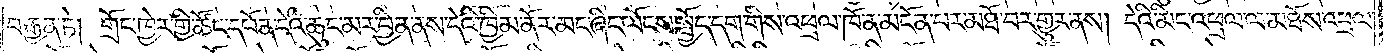བརྒྱན་ཏེ། གྲོང་ཁྱེར་གྱི་ཚོང་དཔོན་དེའི་ཆུང་མར་བྱིན་ནས་དེའི་ཁྱིམ་ནོར་མང་ཞིང་ལོངས་སྤྱོད་དག་གིས་འཕྲལ་ཁོ་ན་མངོན་པར་མཐོ་བར་གྱུར་ནས། དེའི་མིང་འཕྲལ་ལ་མཐོས་འཕྲལ་
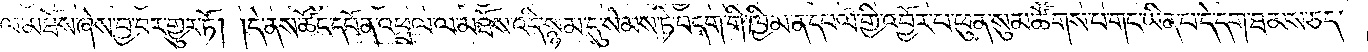ལ་མཐོས་ཞེས་བྱ་བར་གྱུར་ཏོ། །དེ་ནས་ཚོང་དཔོན་འཕྲལ་ལ་མཐོས་འདི་སྙམ་དུ་སེམས་ཏེ་བདག་གི་ཁྱིམ་ན་དཔལ་གྱི་འབྱོར་པ་ཕུན་སུམ་ཚོགས་པ་གང་ཡིན་པ་དེ་དག་ཐམས་ཅད་
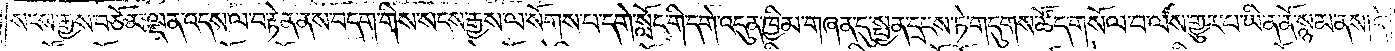སངས་རྒྱས་བཅོམ་ལྡན་འདས་ལ་བརྟེན་ནས་བདག་གིས་སངས་རྒྱས་ལ་སོགས་པ་དགེ་སློང་གི་དགེ་འདུན་ཁྱིམ་གཞན་དུ་སྤྱན་དྲངས་ཏེ་གདུགས་ཚོད་གསོལ་བ་ལས་གྱུར་པ་ཡིན་ནོ་སྙམ་ནས། དེ་
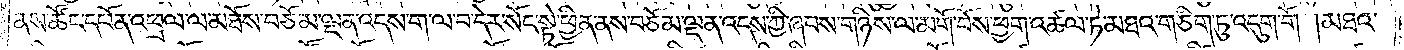ནས་ཚོང་དཔོན་འཕྲལ་ལ་མཐོས་བཅོམ་ལྡན་འདས་ག་ལ་བ་དེར་སོང་སྟེ་ཕྱིན་ནས་བཅོམ་ལྡན་འདས་ཀྱི་ཞབས་གཉིས་ལ་མགོ་བོས་ཕྱག་འཚལ་ཏེ་མཐའ་གཅིག་ཏུ་འདུག་གོ །མཐའ་
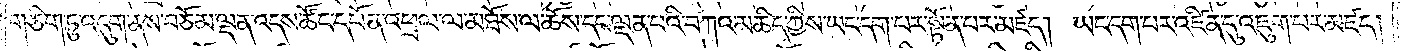གཅིག་ཏུ་འདུག་ནས་བཅོམ་ལྡན་འདས་ཚོང་དཔོན་འཕྲལ་ལ་མཐོས་ལ་ཆོས་དང་ལྡན་པའི་བཀའ་མཆིད་ཀྱིས་ཡང་དག་པར་སྟོན་པར་མཛད། ཡང་དག་པར་འཛིན་དུ་འཇུག་པར་མཛད།
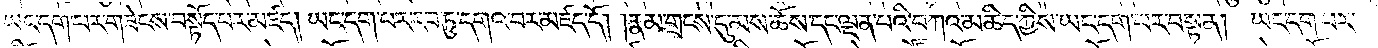ཡང་དག་པར་གཟེངས་བསྟོད་པར་མཛད། ཡང་དག་པར་རབ་ཏུ་དགའ་བར་མཛད་དོ། །རྣམ་གྲངས་དུ་མས་ཆོས་དང་ལྡན་པའི་བཀའ་མཆིད་ཀྱིས་ཡང་དག་པར་བསྟན། ཡང་དག་པར་
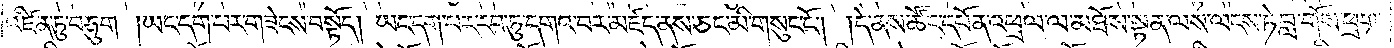འཛིན་ཏུ་བཅུག །ཡང་དག་པར་གཟེངས་བསྟོད། ཡང་དག་པར་རབ་ཏུ་དགའ་བར་མཛད་ནས་ཅང་མི་གསུང་ངོ༌། །དེ་ནས་ཚོང་དཔོན་འཕྲལ་ལ་མཐོས་སྟན་ལས་ལངས་ཏེ་བླ་གོས་ཕྲག་
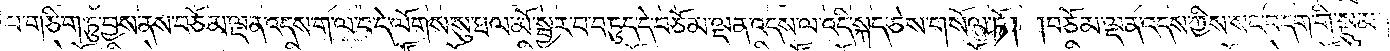པ་གཅིག་ཏུ་བྱས་ནས་བཅོམ་ལྡན་འདས་ག་ལ་བ་དེ་ལོངས་སུ་ཐལ་མོ་སྦྱར་བ་བཏུད་དེ་བཅོམ་ལྡན་འདས་ལ་འདི་སྐད་ཅེས་གསོལ་ཏོ། །བཅོམ་ལྡན་འདས་ཀྱིས་སང་བདག་གི་སྡུམ་
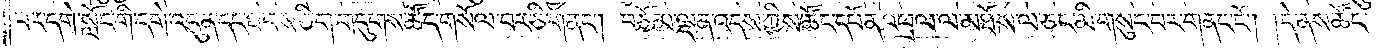པར་དགེ་སློང་གི་དགེ་འདུན་དང་ཐབས་ཅིག་གདུགས་ཚོད་གསོལ་བར་ཅི་གནང༌། བཅོམ་ལྡན་འདས་ཀྱིས་ཚོང་དཔོན་འཕྲལ་ལ་མཐོས་ལ་ཅང་མི་གསུང་བར་གནང་ངོ༌། །དེ་ནས་ཚོང་
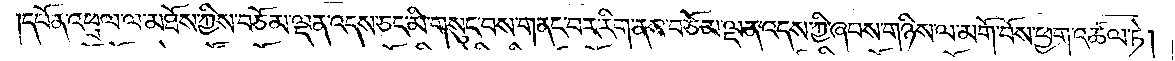དཔོན་འཕྲལ་ལ་མཐོས་ཀྱིས་བཅོམ་ལྡན་འདས་ཅང་མི་གསུང་བས་གནང་བར་རིག་ནས་བཅོམ་ལྡན་འདས་ཀྱི་ཞབས་གཉིས་ལ་མགོ་བོས་ཕྱག་འཚལ་ཏེ།
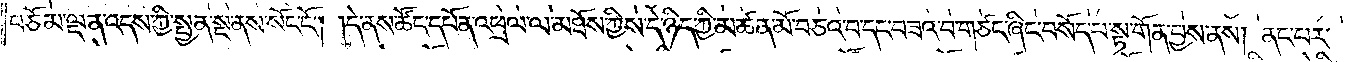བཅོམ་ལྡན་འདས་ཀྱི་སྤྱན་སྔ་ནས་སོང་ངོ༌། །དེ་ནས་ཚོང་དཔོན་འཕྲལ་ལ་མཐོས་ཀྱིས་དེ་ཉིད་ཀྱི་མཚན་མོ་བཅའ་བ་དང་བཟའ་བ་གཙང་ཞིང་བསོད་པ་སྟ་གོན་བྱས་ནས། ནང་པར་
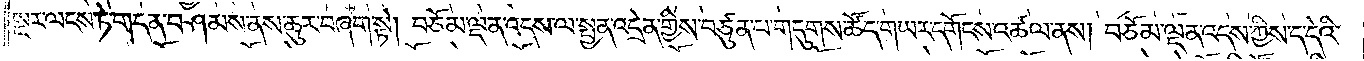སྔར་ལངས་ཏེ་གདན་བཤམས་ནས་ཆུར་བཞག་སྟེ། བཅོམ་ལྡན་འདས་ལ་སྤྱན་འདྲེན་གྱིས་བཙུན་པ་གདུགས་ཚོད་གཡར་དགོངས་འཚལ་ནས། བཅོམ་ལྡན་འདས་ཀྱིས་ད་དེའི་
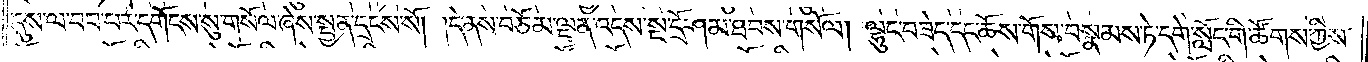དུས་ལ་བབ་པར་དགོངས་སུ་གསོལ་ཞེས་སྤྱན་དྲངས་སོ། །དེ་ནས་བཅོམ་ལྡན་འདས་སྔ་དྲོ་ཤམ་ཐབས་གསོལ། ལྷུང་བཟེད་དང་ཆོས་གོས་བསྣམས་ཏེ་དགེ་སློང་གི་ཚོགས་ཀྱིས་
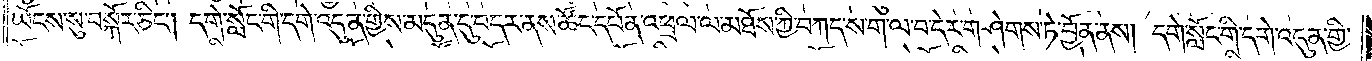ཡོངས་སུ་བསྐོར་ཅིང༌། དགེ་སློང་གི་དགེ་འདུན་གྱིས་མདུན་དུ་བདར་ནས་ཚོང་དཔོན་འཕྲལ་ལ་མཐོས་ཀྱི་བཀད་ས་ག་ལ་བ་དེར་གཤེགས་ཏེ་བྱོན་ནས། དགེ་སློང་གི་དགེ་འདུན་གྱི་
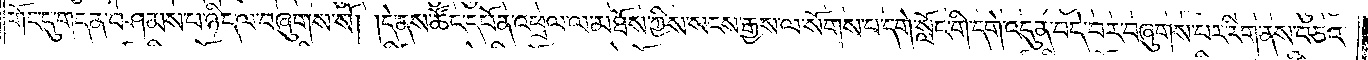གོང་དུ་གདན་བཤམས་པ་ཉིད་ལ་བཞུགས་སོ། །དེ་ནས་ཚོང་དཔོན་འཕྲལ་ལ་མཐོས་ཀྱིས་སངས་རྒྱས་ལ་སོགས་པ་དགེ་སློང་གི་དགེ་འདུན་བདེ་བར་བཞུགས་པར་རིག་ནས་བཅའ་
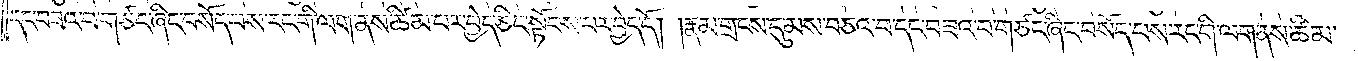དང་བཟའ་བ་གཙང་ཞིང་བསོད་པས་རང་གི་ལག་ནས་ཚིམ་པར་བྱེད་ཅིང་སྟོབས་པར་བྱེད་དོ། །རྣམ་གྲངས་དུ་མས་བཅའ་བ་དང་བཟའ་བ་གཙང་ཞིང་བསོད་པས་རང་གི་ལག་ནས་ཚིམ་
